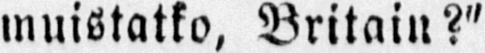muistatko, Britain?"
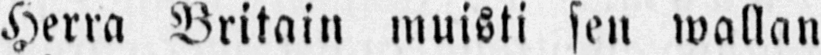Herra Britain muisti sen wallan
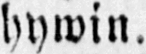hywin.
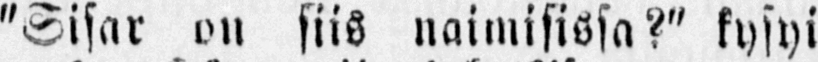"Sisar on siis naimisissa?" kysyi
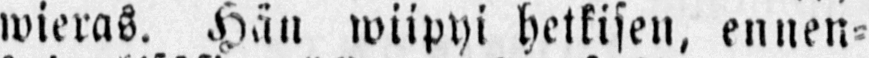wieras. Hän wiipyi hetkisen, ennen-
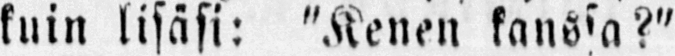kuin lisäsi: "Kenen kanssa?"
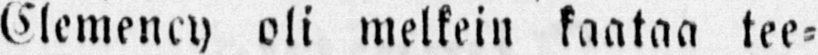Clemency oli melkein kaataa tee-
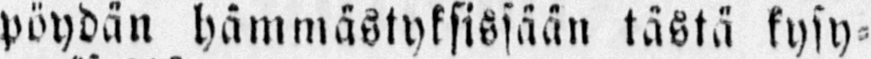pöydän hämmästyksissään tästä kysy-
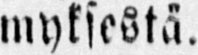myksestä.
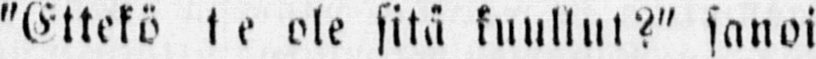"Ettekö te ole sitä kuullut?" sanoi
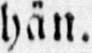hän.
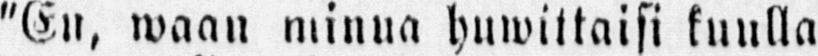"En, waan minua huwittaisi kuulla
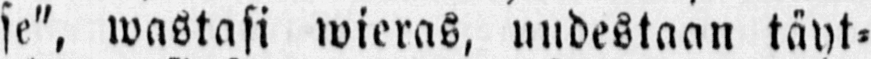se", wastasi wieras, uudestaan täyt-
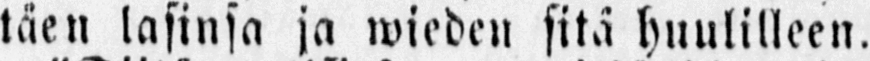täen lasinsa ja wieden sitä huulilleen.
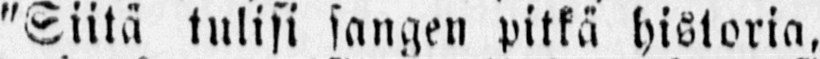"Siitä tulisi sangen pitkä historia,
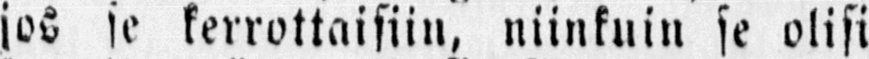jos se kerrottaisiin, niinkuin se olisi
